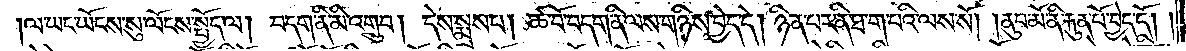།ལ་ཡང་ཡོངས་སུ་ལོངས་སྤྱོད་ལ། བདག་ནི་མི་འགྲུབ། དེས་སྨྲས་པ། ཚ་བོ་བདག་ནི་ལས་གཉིས་བྱེད་དེ། ཉིན་པར་ནི་ཐ་ག་པའི་ལས་སོ། །ནུབ་མོ་ནི་རྐུན་པོ་བྱེད་དོ། །
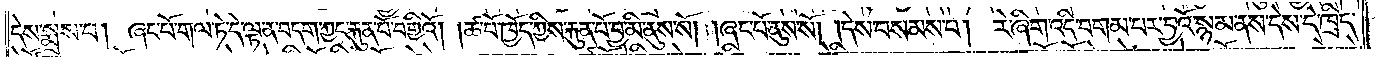དེས་སྨྲས་པ། ཞང་པོ་གལ་ཏེ་དེ་ལྟ་ན་བདག་ཀྱང་རྐུན་པོ་བགྱིའོ། །ཚ་བོ་ཁྱོད་ཀྱིས་རྐུན་པོ་བྱ་མི་ནུས་སོ། །ཞང་པོ་ནུས་སོ། །དེས་བསམས་པ། རེ་ཞིག་འདི་བགམ་པར་བྱའོ་སྙམ་ནས་དེས་དེ་ཁྲིད་
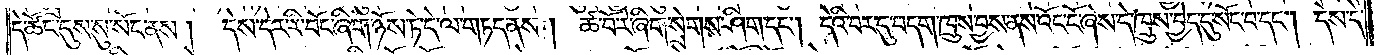དེ་ཚོང་དུས་སུ་སོང་ནས།    དེས་དེར་རི་བོང་ཞིག་ཉོས་ཏེ་དེ་ལ་གཏད་ནས། ཚ་བོ་རེ་ཞིག་སྲེགས་ཤིག་དང༌། དེའི་བར་དུ་བདག་ཁྲུས་བྱས་ནས་འོང་ངོ་ཞེས་དེ་ཁྲུས་བྱེད་དུ་སོང་བ་དང༌། དེས་དེ་
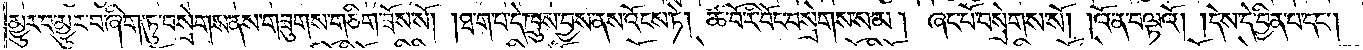མྱུར་བ་མྱུར་བ་ཞིག་ཏུ་བསྲེགས་ནས་གཟུགས་གཅིག་ཟོས་སོ། །ཐ་ག་པ་དེ་ཁྲུས་བྱས་ནས་འོངས་ཏེ། ཚ་བོ་རི་བོང་བསྲེགས་སམ། ཞང་པོ་བསྲེགས་སོ། །འོ་ན་བལྟའོ། །དེས་དེ་བྱིན་པ་དང༌།
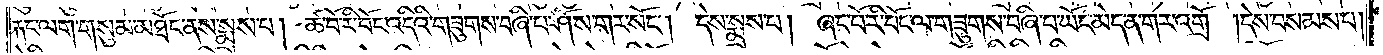རྐང་ལག་གསུམ་མཐོང་ནས་སྨྲས་པ། ཚ་བོ་རི་བོང་འདིའི་གཟུགས་བཞི་པ་ཤོས་གར་སོང༌། དེས་སྨྲས་པ། ཞང་པོ་རི་བོང་ལ་གཟུགས་བཞི་པ་ཡོང་མེད་ན་གར་འགྲོ། དེས་བསམས་པ།
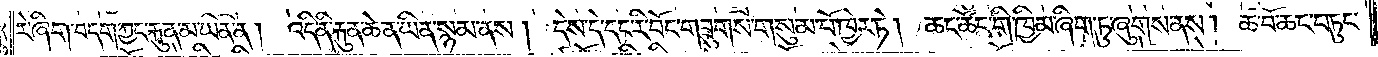རེ་ཞིག་བདག་ཀྱང་རྐུན་མ་ཡིན་ན། འདི་ནི་རྐུན་ཆེན་ཡིན་སྙམ་ནས། དེས་དེ་དང་རི་བོང་གཟུགས་གསུམ་པོ་ཁྱེར་ཏེ། ཆང་ཚོང་གི་ཁྱིམ་ཞིག་ཏུ་ཞུགས་ནས། ཚ་བོ་ཆང་བཏུང་
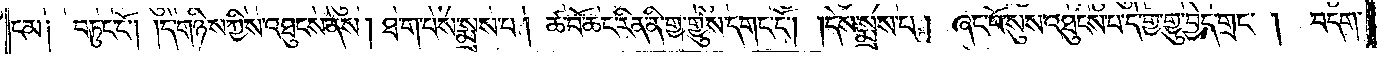ངམ༑  བཏུང་ངོ༌། །དེ་གཉིས་ཀྱིས་འཐུངས་ནས། །ཐ་ག་པས་སྨྲས་པ། ཚ་བོ་ཆང་རིན་ནི་གྱ་གྱུས་དགང་ངོ༌། །དེས་སྨྲས་པ། ཞང་པོ་སུས་འཐུངས་པ་དེ་གྱ་གྱུ་བྱེད་གྲང༌། བདག་
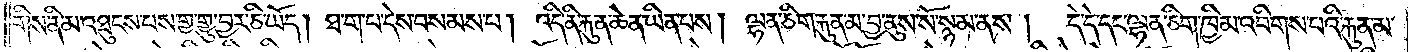གིས་ནི་མ་འཐུངས་པས་གྱ་གྱུ་བྱར་ཅི་ཡོད། ཐ་ག་པ་དེས་བསམས་པ། འདི་ནི་རྐུན་ཆེན་ཡིན་པས། ལྷན་ཅིག་རྐུན་མ་བྱ་ནུས་སོ་སྙམ་ནས།    དེ་དེ་དང་ལྷན་ཅིག་ཁྱིམ་འབིགས་པའི་རྐུན་མ་
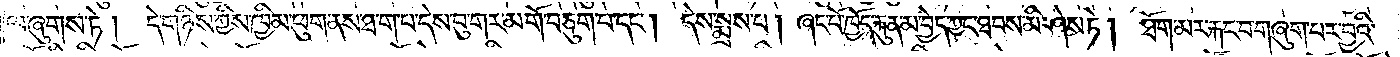ལ་ཞུགས་ཏེ།   དེ་གཉིས་ཀྱིས་ཁྱིམ་ཕུག་ནས་ཐ་ག་པ་དེས་བུ་གར་མགོ་བཅུག་པ་དང༌། དེས་སྨྲས་པ། ཞང་པོ་ཁྱོད་རྐུན་མ་བྱེད་ཀྱང་ཐབས་མི་ཤེས་ཏེ། ཐོག་མར་རྐང་པ་གཞུག་པར་བྱའི་
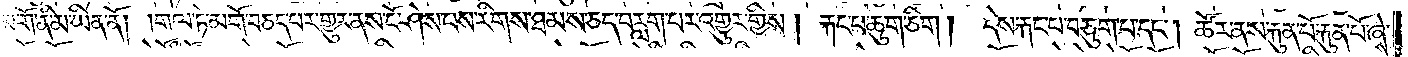མགོ་ནི་མ་ཡིན་ནོ། །གལ་ཏེ་མགོ་བཅད་པར་གྱུར་ནས་ངོ་ཤེས་པས་རིགས་ཐམས་ཅད་བརླག་པར་འགྱུར་གྱིས། རྐང་པ་ཆུག་ཅིག །དེས་རྐང་པ་བཅུག་པ་དང༌། ཚོར་ནས་རྐུན་པོ་རྐུན་པོ་ཞེས་
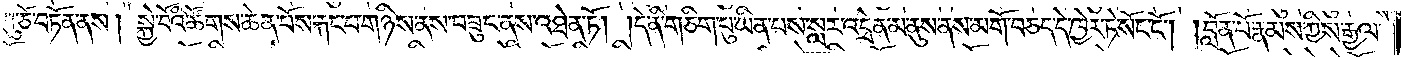ཀུ་ཅོ་བཏོན་ནས། སྐྱེ་བོའི་ཚོགས་ཆེན་པོས་རྐང་པ་གཉིས་ནས་བཟུང་ནས་འཐེན་ཏོ། །དེ་ནི་གཅིག་པུ་ཡིན་པས་སླར་འདྲེན་མ་ནུས་ནས་མགོ་བཅད་དེ་ཁྱེར་ཏེ་སོང་ངོ༌། །བློན་པོ་རྣམས་ཀྱིས་རྒྱལ་
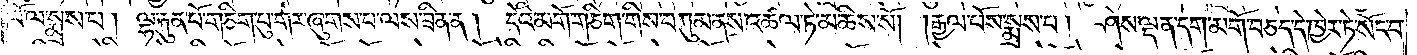པོ་ལ་སྨྲས་པ། ལྷ་རྐུན་པོ་གཅིག་པུ་གར་ཞུགས་པ་ལས་ཟིན་ན། དེའི་མགོ་གཅིག་གིས་བཀུམ་ནས་འཚལ་ཏེ་མཆིས་སོ། །རྒྱལ་པོས་སྨྲས་པ། ཤེས་ལྡན་དག་མགོ་བཅད་དེ་ཁྱེར་ཏེ་སོང་བ་
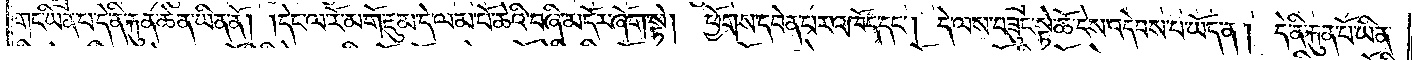གང་ཡིན་པ་དེ་ནི་རྐུན་ཆེན་ཡིན་ནོ། །དེང་ལ་རོ་མགོ་རྡུམ་དེ་ལམ་པོ་ཆེའི་བཞི་མདོར་ཞོག་སྟེ། ཕྱོགས་དབེན་པར་འཁོད་དང༌། དེ་ལས་བཟུང་སྟེ་ཆོ་ངེས་འདེབས་པ་ཡོད་ན། དེ་ནི་རྐུན་པོ་ཡིན་
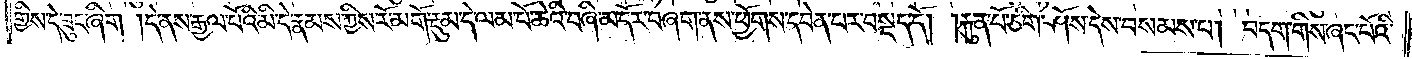གྱིས་དེ་ཟུང་ཞིག །དེ་ནས་རྒྱལ་པོའི་མི་དེ་རྣམས་ཀྱིས་རོ་མགོ་རྡུམ་དེ་ལམ་པོ་ཆེའི་བཞི་མདོར་བཞག་ནས་ཕྱོགས་དབེན་པར་བསྡད་དོ། །རྐུན་པོ་ཅིག་ཤོས་དེས་བསམས་པ། བདག་གིས་ཞང་པོའི་
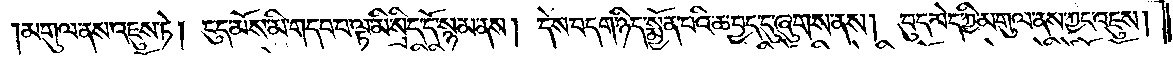།མགུལ་ནས་འཇུས་ཏེ། ངུད་མོས་མི་གདབ་པ་ལྟ་མི་སྲིད་དོ་སྙམ་ནས། དེས་བདག་ཉིད་སྨྱོན་པའི་ཆ་བྱད་དུ་ཞུགས་ནས། བུད་མེད་ཀྱི་མགུལ་ནས་ཀྱང་འཇུས།
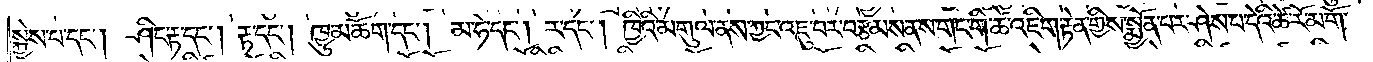སྐྱེས་པ་དང༌། ཤིང་རྟ་དང༌། རྟ་དང༌། ཁྱུ་མཆོག་དང༌། མ་ཧེ་དང༌། ར་དང༌། ཁྱིའི་མགུལ་ནས་ཀྱང་འཇུ་བར་བརྩམས་ནས་གང་གི་ཚེ་འཇིག་རྟེན་གྱིས་སྨྱོན་པར་ཤེས་པ་དེའི་ཚེ་རོ་མགོ་
